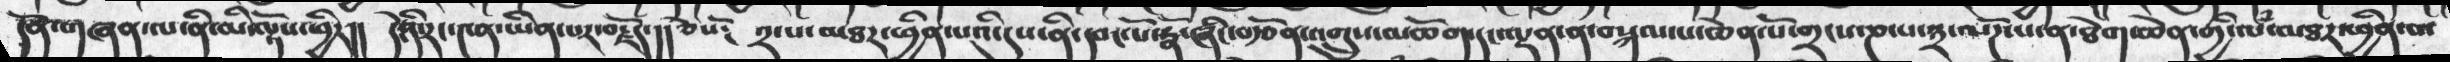དོན་གཞན་ལ་ནི་མི་ལྟོས་ཕྱིར།།   དེ་ནི་རང་༤ན་ཡིན་པར་བརྗོད་།།  ཅེསོ༴  ༢་པ་མཐར་ཕྱིན་པའི་དུས་ནི་དབང་པོ་རྣོ་ཞིང་བརྩོན་འགྲུས་མཆོག་དང་ལྡན་ན་བསྐལ་པ་ཆེན་པོ་གྲངས་ཎ་པ་༣་ལོཌ་པ་ན་ཐེག་ཆེན་གྱི་ལཾ་མཐར་ཕྱིན་པ་
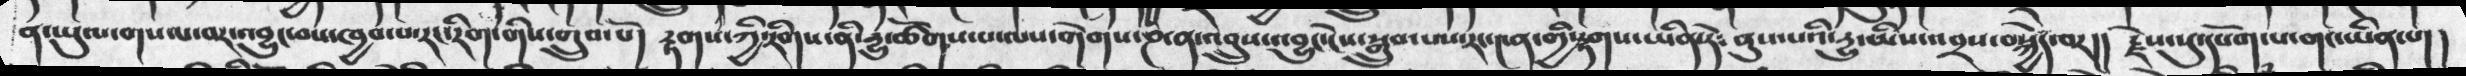ན་ཡུལ་གསལ་བར་འབྱུང་བས་ཁྱབ་པ་རང་རིག་གིས་གྲུབ་པོ།   རྟགས་ཀྱི་རིགས་ནི་དྱུ་ཚོགས་པ་ལས་གེགས་ཎ་ན་འབྲུས་འབྱུང་ངེས་སྒྲུབ་པས་རང་༤ན་གྱི་རྟགས་ཡིན་ཏེ༴  ནུས་པའི་དྱུ་ཡིས་འབྲས་བསྐྱེད་བར།།   རྗེས་སུ་དཔོག་པ་གང་ཡིན་པ།།
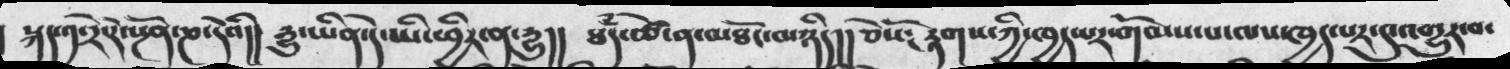སྐད་༡་རེ་དེ་སྔོན་ཎ་དེའི།།  དྱུ་ཡིན་དེ་ཡི་ཕྱིར་ན་དྱུ།།  ཐཾད་ཚེ་ན་མཐོང་མཉིད།།  ཅེསོ༴  རྟགས་ཀྱི་ཁྱད་པར་གོམས་པ་ལས་ཁྱད་པར་དུ་འགྱུར་བ་
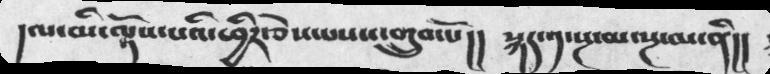།ལ་མི་ལྟོས་པའི་ཕྱིར་ཅེས་པས་འགྲུབ་པོ།།   སྐད་༡་སྔ་མ་སྔ་མ་ནི།།
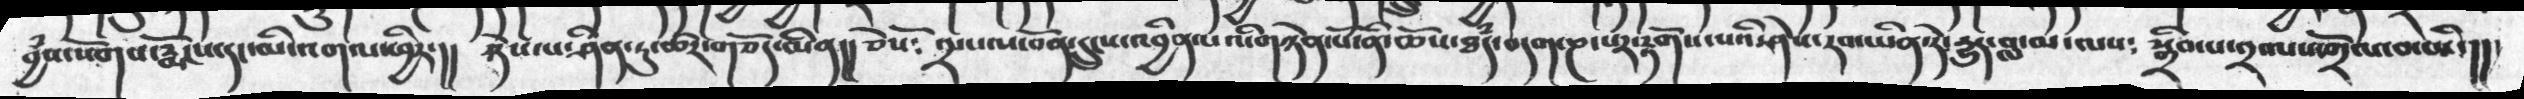བྱཾས་སོགས་རྨོངས་དང་མི་འགལ་ཕྱིར་།།  ཉེས་པ་ཤིན་ཏུ་ཚར་གཅོད་མིན།།  ཅེསོ༴  ༢་པ་ས་བོན་དྲུངས་འབྱིནཔའི་གཉེན་པོ་ནི་ཆོས་ཐཾད་བདག་ཎ་པར་རྟོགས་པའི་ཤེས་རབ་ཡིན་ཏེ་དྱུད་བླ་མ་ལས༴   སྒྲིབ་པ་༢་ལས་འགྲོལ་བ་ཡི་།།
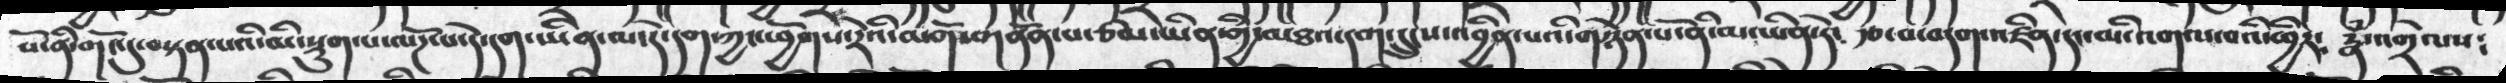སོ་ནི་གའོདུ་བསྟན་པའི་མི་སྡུག་པ་ལཌོ་པ་དེ་དག་ཡིན་ལ་དེ་དག་ཀྱང་ཕྱོགས་རེའི་མགོ་གནོན་པ་ཙམ་ཡིན་གྱི་མཐའ་དག་དྲུངས་འབྱིན་པའི་གཉེན་པོ་ནི་མ་ཡིན་ཏེ༴  རྩ་བ་བདག་འཛིན་དེང་མི་འགལ་བའི་ཕྱིར༴  རྣཾ་འགྲེལས༴
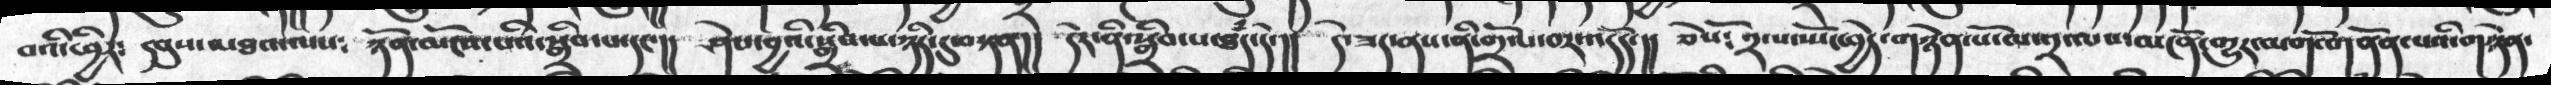བའི་ཕྱིར༴  དབུས་མཐའ་ལས༴   ཉོན་མོངས་པའི་སྒྲིབ་པ་དང་།།   ཤེས་བྱའི་སྒྲིབ་པ་ཉིད་དུ་བསྟན།། དེར་ནི་སྒྲིབ་པ་ཐཾད་དེ་།།  དེ་ཟད་ནས་ནི་གྲོལ་བར་འདོད་།། ཅེསོ༴  ༢་པ་ཡོང་བྱེད་གཉེན་པོ་ལ་༢་ལས་མངོན་གྱུར་མགོ་གནོན་པའི་གཉེན་
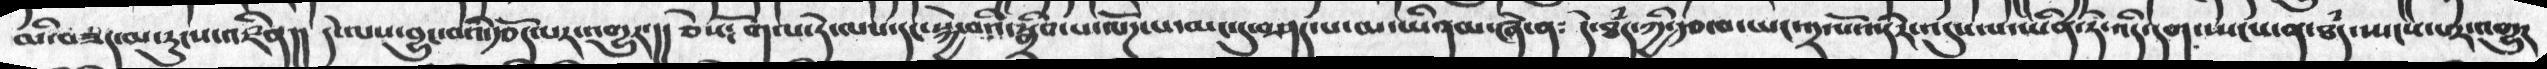མི་བཟད་མ་རུངས་འཛིན།།  དེ་ལས་བྱུང་བའི་རྩོད་པར་འགྱུར་།།  ཅེསོ༴  གལ་ཏེ་ལས་དང་སྐྱེ་བའི་སྒྲིབ་པ་ལོཌ་པ་མང་དུ་བཤད་པ་མ་ཡིནམ་ཞེ་ན༴  དེ་ཐཾད་ཀྱི་རྩ་བ་ཡང་༢་པོ་འདིར་འདུས་པ་ཡིན་ཏེ་འདི་དག་སྤངས་ན་ཐཾད་སྤངས་པར་འགྱུར
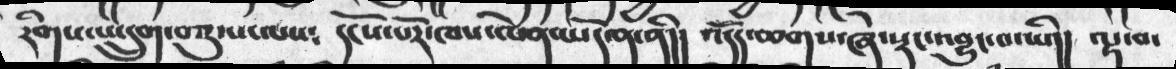རིགས་པ་དྲུག་བཅུ་པ་ལས༴   དངོས་པོར་ཁས་ལེན་ཡོད་ན་ནི།།  འདོད་ཆགས་ཞེ་སྡང་འབྱུང་བ་ཡི།། ལྟ་བ་
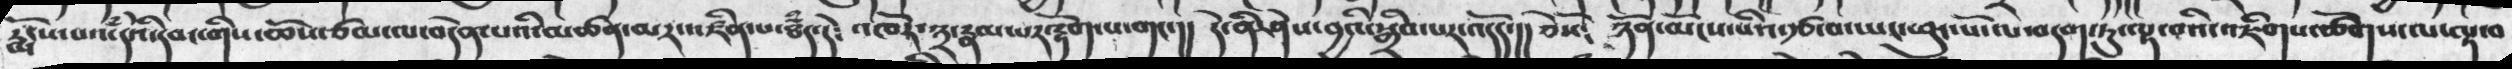རྨོངས་པའཾ་དེའི་དབང་གིས་ཆོས་ཙམ་ལ་བདེན་པའི་མཚན་མར་འཛིན་པ་ཐཾད་དེ༴  འཁོར་༣་རྣམ་པར་རྟོག་པ་གང་།།   དེ་ནི་ཤེས་བྱའི་སྒྲིབ་པར་འདོད་།། ཅེསོ༴   ཉོན་མོངས་པའི་རྩ་བ་ཡང་ཕུང་པོ་ལ་བདག་ཏུ་ལྟ་བའི་འཇིགས་ཚོགས་ལ་ལྟ་བ
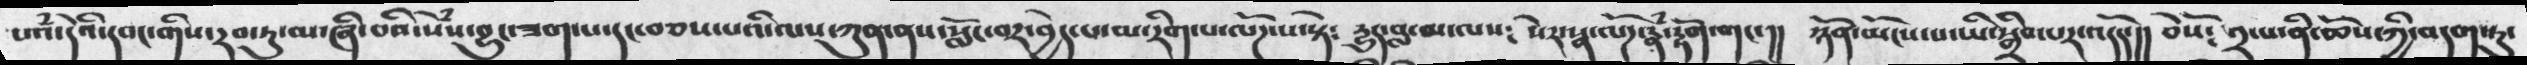པའཾ་དེའི་དབང་གིས་རབ་ཏུ་མ་ཞི་པའི་སེཾས་བྱུང་ཟག་པ་དང་བཅས་པའི་ལས་ཀུན་ནས་སྨོང་བར་བྱེད་པ་མ་རིག་པ་ལོཌ་པ་སྟེ༴  དྱུད་བླ་མ་ལས༴   སེར་སྣ་ལོཌ་རྣཾ་རྟོག་གང་།།  ཉོན་མོངས་པ་ཡི་སྒྲིབ་པར་འདོད་།། ཅེསོ༴  ༢་པ་ནི་ཆོས་ཀྱི་བདག་ཏུ་
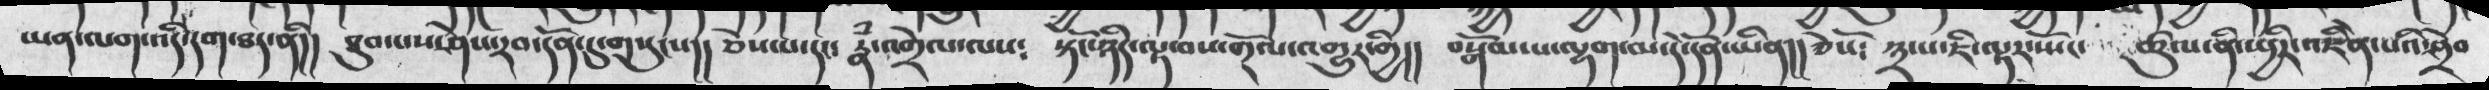ཡན་ལག་འདི་དག་ཐད་ནི།།  ཐུབ་པས་ཤེས་རབ་དོན་དུ་གསུངས།། ཅེས་པ་དང་ རྣཾ་འགྲེལ་ལས༴  སྟོང་ཉིད་ལྟ་བས་གྲོལ་འགྱུར་གྱི།།   བསྒོམ་པ་ལྷག་མ་དེ་དོན་ཡིན།།ཅེསོ༴  ༣་པ་ཇི་ལྟར་སྤོང་   ཚུལ་ནི་སྤྱིར་འཇིེན་པའི་ཤྲེབ
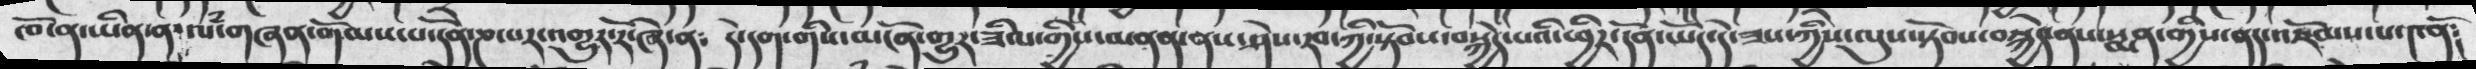ཁོ་ན་ཡིན་ན་ལཾ་གཞན་གོམས་པ་དོན་ཎ་པར་འགྱུར་ཞེ་ན༴  དེ་དག་གིས་མངོན་གྱུར་ཟིལ་གྱིས་མནན་ནས་ཤེས་རབ་ཀྱི་སྟོབས་བསྐྱེད་པའི་ཕྱིར་དོན་ཡོད་དེ་ཟས་ཀྱིས་ལུས་སྟོབས་བསྐྱེད་ནས་སྨན་གྱིས་ནད་འཇོམས་པ་༤ནོ༴
